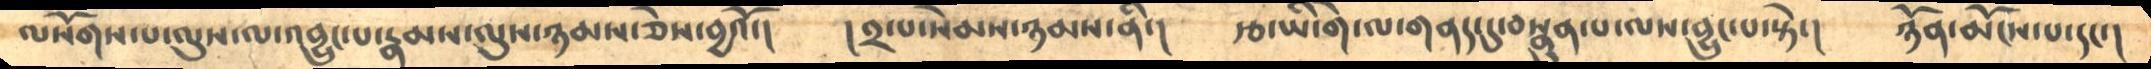ལསོགས་པ་ལུས་ལ་འབྱུང་པ་རྣམས་ལུས་ཉམས་ཅེས་བྱའོ་།    །༢་པ་སེམས་ཉམས་ནི་།   རྩ་ཡི་གེ་ལ་གནད་དུ་བསྣུན་པ་ལས་བྱུང་པ་སྟེ་།   ཉོན་མོངས་པ་དང་།
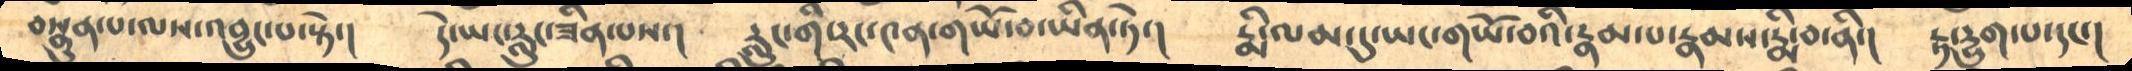བསྣུན་པ་ལས་འབྱུང་བ་སྟེ་།    དེ་ཡང་རླུང་ཟིན་པས་།་   རླུང་གི་རང་༤ན་གཡོ་བ་ཡིན་ཏེ་།   རྨི་ལམ་དུ་ཡང་གཡོ་བའི་རྣམ་པ་རྣམས་རྨི་བ་ནི་།   རྟ་དྱུག་པ་དང་།
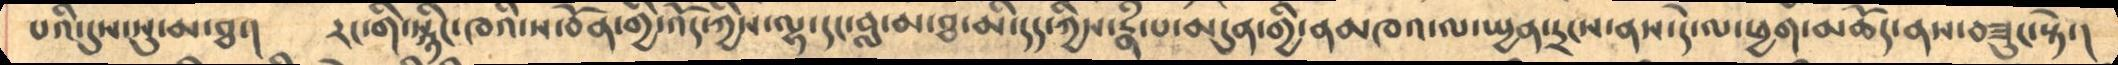པའི་དུས་སུ་མ་ཐ་། རང་གི་སྙིང་ཁའི་ས་བོན་གྱི་འོད་ཀྱིས་ལྷ་དང་བླ་མ་ཐ་མི་དད་ཀྱིས་རྣྃ་པ་མདུན་གྱི་ནམཁའ་ལ་སྤྱན་དྲངས་ནས་དེ་ལ་ཕྱག་མཆོད་ནས་བཟུང་སྟེ་།
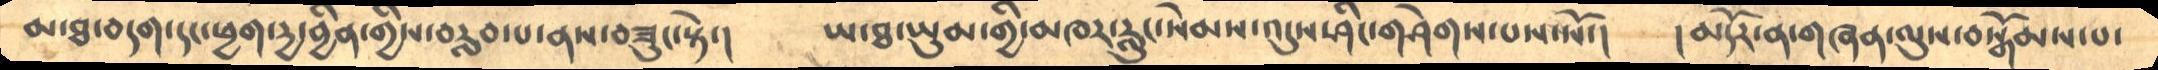མ་ཐ་བདག་དང་ཕྱག་དྱ་བྱིན་གྱིས་བརླབ་པ་ནས་བཟུང་སྟེ་། ཡ་ཐ་ཡུམ་གྱི་མཁར་རླུང་སེམས་འདུས་ཤིང་གཤེགས་པས་སོ་། །མདོར་ན་གཞན་ལུས་བསྒོམས་པ་
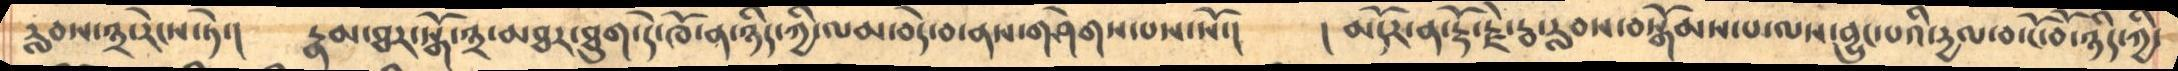རླབས་༣་རེངས་ཏེ་། རྣམ་ཐར་སྒོ་༣་མཐར་ཐུག་དེ་ཁོ་ན་ཉིད་ཀྱི་ལམ་བདེ་བ་ནས་གཤེགས་པས་སོ་། །མདོར་ན་རྡོ་རྗེ་རྦ་རླབས་བསྒོམས་པ་ལས་བྱུང་པའི་དྱལ་བ་ངོ་བོ་ཉིད་ཀྱི་
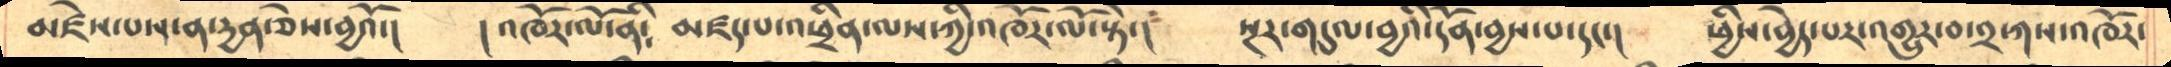མཛེས་པས་ན་དྱན་ཅེས་བྱའོ་།    །འཁོར་ལོ་ནི༴   མཛད་པ་འཕྲིན་ལས་ཀྱི་འཁོར་ལོ་སྟེ་།    སྔར་གདུལ་བྱའི་དོན་བྱས་པ་དང་།   ཕྱིས་བྱེད་པར་འགྱུར་བ་༢་ཀས་འཁོར་
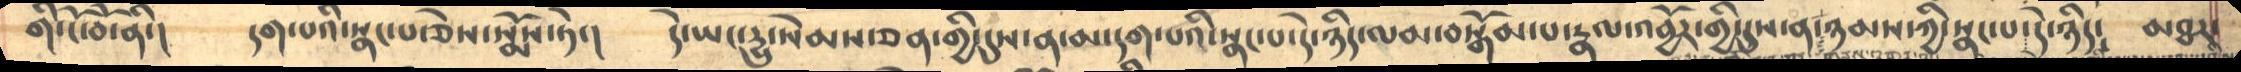གི་ངོ་བོ་ནི་།      དག་པའི་སྣང་བ་ཅེས་སྨོས་ཏེ་།    དེ་ཡང་དྱུ་སེམས་ཅན་གྱི་དུས་ན་མ་དག་པའི་སྣང་པ་དེ་ཉིད་ལམ་བསྒོམ་པ་རྣལ་འབྱོར་གྱི་དུས་ན་ཉམས་ཀྱི་སྣང་པ་དེ་ཉིད༴    མཐར་
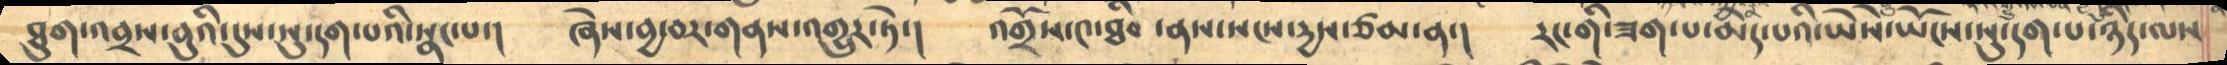ཐུག་འབྲས་བུའི་དུས་སུ་དག་པའི་སྣང་པ་།       ཞེས་བྱ་བར་གནས་འགྱུར་ཏེ་།     འགྲོས་༤་ཐིབ་ནས་སངས་དྱས་ཙམ་ན་།    རང་གི་ཟག་པ་མེད་པའི་ཡཻས་ཡོངས་སུ་དག་པ་ཉིད་ལས
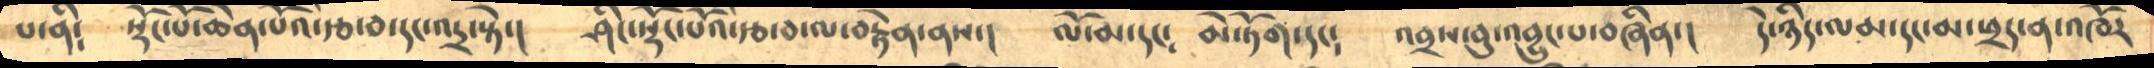པ་ནི༴    སྡོང་པོ་ཆེན་པོའི་རྩ་བ་དང་འདྲ་སྟེ་།    ཤིང་སྡོང་པོའི་རྩ་བ་ལ་བརྟེན་ནས་།    ལོ་མ་དང༴    མེ་ཏོག་དང༴      འབྲས་བུ་འབྱུང་པ་བཞིན་།    དེ་ཉིད་ལམ་དང་མ་ཕྲད་ན་འཁོར
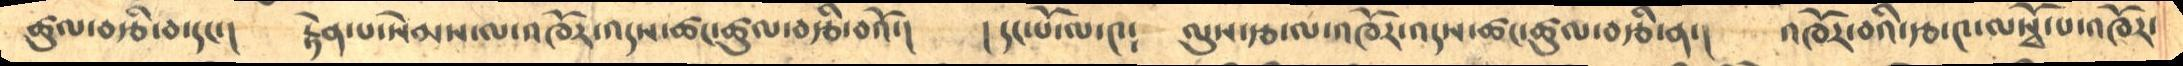ཚུལ་བརྩི་བ་དང་།       རྟེན་པ་སེམས་ལ་འཁོར་འདས་ཚང་ཚུལ་བརྩི་བའོ་།     །དང་པོ་ལ་༤༴     ལུས་རྩ་ལ་འཁོར་འདས་ཚང་ཚུལ་བརྩི་ན་།    འཁོར་བའི་རྩ་༤་ལསྭོ་པ་འཁོར་
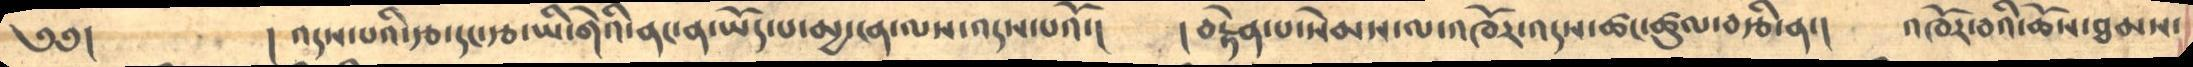༄༅།        །   འདས་པའི་རྩ་དང་རྩ་ཡི་གེའི་ནང་ན་ཡོད་པ་མྱ་ངན་ལས་འདས་པའོ་།       །བརྟེན་པ་སེམས་ལ་འཁོར་འདས་ཚང་ཚུལ་བརྩི་ན་།     འཁོར་བའི་ཆོས་ཐམས་
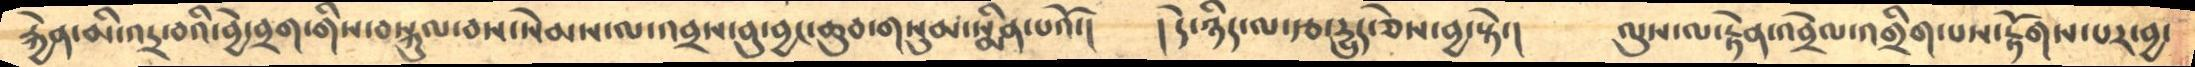རྐྱེན་མི་འདྲ་བའི་བྱེ་བྲག་གིས་བསྐུལ་བས་སེམས་ལ་འབྲས་བུ་བྱང་ཆུབ་གསུམ་སྨིན་པའོ་།     །དེ་ཉིད་ལ་རྩ་དྱུད་ཅེས་བྱ་སྟེ་།    ལུས་ལ་རྟེན་འབྲེལ་འགྲིག་པས་རྟོགས་པར་བྱ་
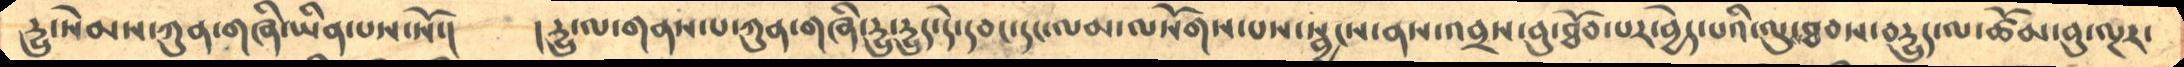དྱུ་སེམས་ཀུན་གཞི་ཡིན་པས་སོ་།      །དྱུ་ལ་གནས་པ་ཀུན་གཞི་དྱུ་དྱུད་དེ་དབང་དང་ལམ་ལསོགས་པས་སྦྱངས་ནས་འབྲས་བུ་ཐོབ་པར་བྱེད་པའི་ལུ་ཐབས་བདྱུད་ལ་ཚོམ་བུ་ལྔར་
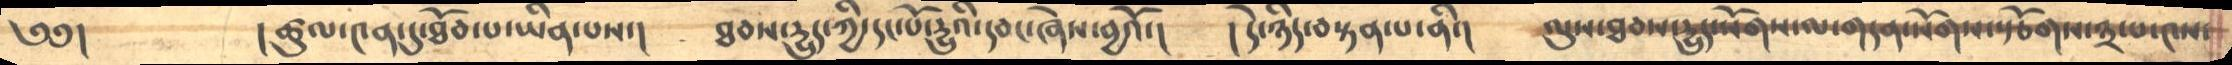༄༅།        །ཚུལ་༤ན་དུ་ཐོབ་པ་ཡིན་པས་།      ཐབས་དྱུད་ཀྱི་དང་པོ་དྱུའི་དབང་ཞེས་བྱའོ་།      །དེ་ཉིད་བསྟན་པ་ནི་།       ལུས་ཐབས་དྱུད་སོགས་ལ་གདན་སོགས་སྩོགས་༣་པ་༤ས་
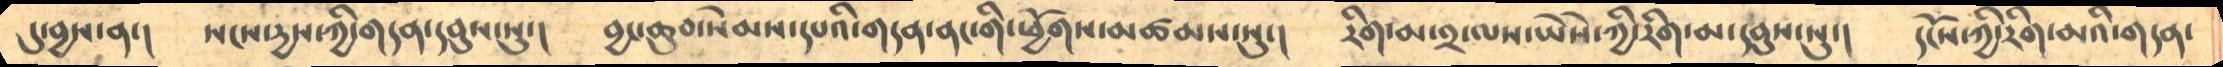དུ་བྱས་ན་།     སངས་དྱས་ཀྱི་གདན་དབུས་སུ་།     བྱང་ཆུབ་སེམས་དཔའི་གདན་ནང་གི་ཕྱོགས་མཚམས་སུ་།    རིག་མ་༢་ལས་ཡཻས་ཀྱི་རིག་མ་དབུས་སུ་།     དངོས་ཀྱི་རིག་མའི་གདན་
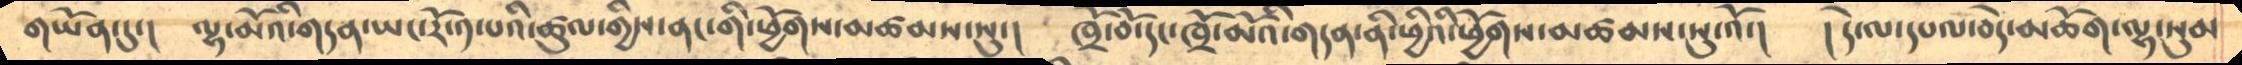གཡོན་དུ་།     ལྷ་མོའི་གདན་ཡང་རོ་༡་པའི་ཚུལ་གྱིས་ནང་གི་ཕྱོགས་མཚམས་སུ་།    ཁྲོ་བོ་དང་ཁྲོ་མོའི་གདན་ནི་ཕྱིའི་ཕྱོགས་མཚམས་སུ་འོ་།     །དེ་ལ་དཔལ་བདེ་མཆོག་ལྷ་སུམ
